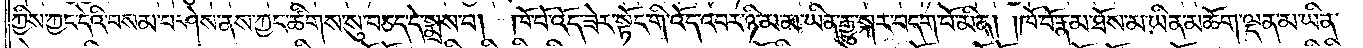ཀྱིས་ཀྱང་དེའི་བསམ་པ་ཤེས་ནས་ཀྱང་ཚིགས་སུ་བཅད་དེ་སྨྲས་པ། ཁོ་བོ་འོད་ཟེར་སྟོང་གི་འོད་འབར་ཉི་མ་མ་ཡིན་རྒྱུ་སྐར་བདག་པོ་མིན། །ཁོ་བོ་རྣམ་ཐོས་མ་ཡིན་མཆོག་ལྡན་མ་ཡིན་
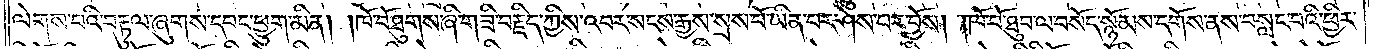ལེགས་པའི་བརྟུལ་ཞུགས་དབང་ཕྱུག་མིན། །ཁོ་བོ་ཐུགས་ཞི་གཟི་བརྗིད་ཀྱིས་འབར་སངས་རྒྱས་སྲས་པོ་ཡིན་པར་ཤེས་པར་བྱོས། །ཁོ་བོ་ཐུབ་ལ་བསོད་སྙོམས་དགོས་ནས་བསླང་བའི་ཕྱིར་
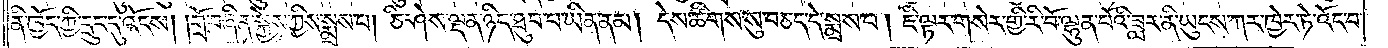ནི་ཁྱོད་ཀྱི་དྲུང་དུ་འོངས། །གྲོ་བཞིན་སྐྱེས་ཀྱིས་སྨྲས་པ། ཅི་ཤེས་ལྡན་ཉིད་ཐུབ་པ་ཡིན་ནམ། དེས་ཚིགས་སུ་བཅད་དེ་སྨྲས་པ། ཇི་ལྟར་གསེར་གྱི་རི་བོ་ལྷུན་པོའི་ཟླར་ནི་ཡུངས་ཀར་ཁྱེར་ཏེ་འོང་བ་
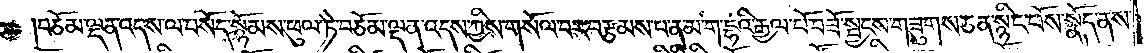བཅོམ་ལྡན་འདས་ལ་བསོད་སྙོམས་ཕུལ་ཏེ་བཅོམ་ལྡན་འདས་ཀྱིས་གསོལ་བར་བརྩམས་པ་ན་མ་ག་དྷའི་རྒྱལ་པོ་བཟོ་སྦྱངས་གཟུགས་ཅན་སྙིང་པོས་སྣོད་ནས་
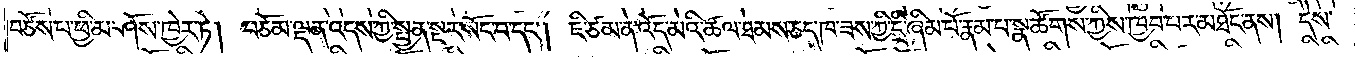བཙོས་པ་ཕྱི་མ་ཤོས་ཁྱེར་ཏེ། བཅོམ་ལྡན་འདས་ཀྱི་སྤྱན་སྔར་སོང་བ་དང༌། ཇི་ཙམ་ན་འོད་མའི་ཚལ་ཐམས་ཅད་ཁ་ཟས་ཀྱི་དྲི་ཞིམ་པོ་རྣམ་པ་སྣ་ཚོགས་ཀྱིས་ཁྱབ་པར་མཐོང་ནས། དེས་
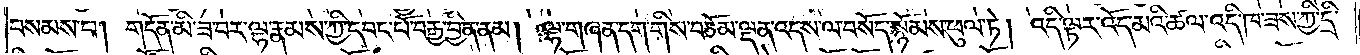བསམས་པ། གདོན་མི་ཟ་བར་ལྷ་རྣམས་ཀྱི་དབང་པོ་བརྒྱ་བྱིན་ནམ། ལྷ་གཞན་དག་གིས་བཅོམ་ལྡན་འདས་ལ་བསོད་སྙོམས་ཕུལ་ཏེ། འདི་ལྟར་འོད་མའི་ཚལ་འདི་ཁ་ཟས་ཀྱི་དྲི་
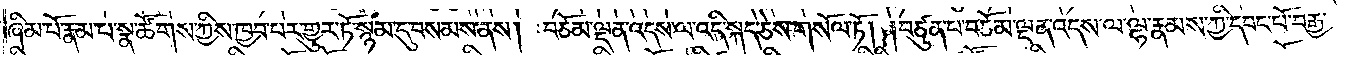ཞིམ་པོ་རྣམ་པ་སྣ་ཚོགས་ཀྱིས་ཁྱབ་པར་གྱུར་ཏོ་སྙམ་དུ་བསམས་ནས། བཅོམ་ལྡན་འདས་ལ་འདི་སྐད་ཅེས་གསོལ་ཏོ། །བཙུན་པ་བཅོམ་ལྡན་འདས་ལ་ལྷ་རྣམས་ཀྱི་དབང་པོ་བརྒྱ་
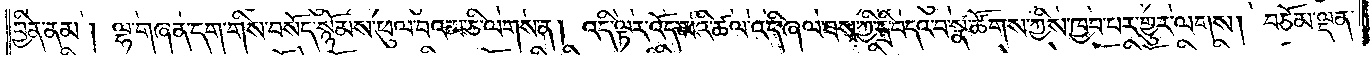བྱིན་ནམ། ལྷ་གཞན་དག་གིས་བསོད་སྙོམས་ཕུལ་བའམ་ཅི་ལགས་ན། འདི་ལྟར་འོད་མའི་ཚལ་འདི་ཞལ་ཟས་ཀྱི་དྲི་བདའ་བ་སྣ་ཚོགས་ཀྱིས་ཁྱབ་པར་གྱུར་ལགས། བཅོམ་ལྡན་
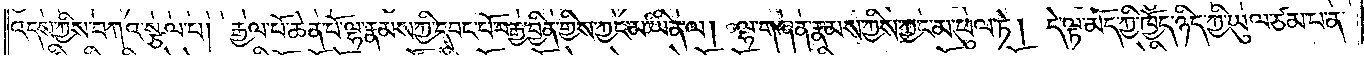འདས་ཀྱིས་བཀའ་སྩལ་པ། རྒྱལ་པོ་ཆེན་པོ་ལྷ་རྣམས་ཀྱི་དབང་པོ་བརྒྱ་བྱིན་གྱིས་ཀྱང་མ་ཡིན་ལ། ལྷ་གཞན་རྣམས་ཀྱིས་ཀྱང་མ་ཕུལ་ཏེ། དེ་ལྟ་མོད་ཀྱི་ཁྱོད་ཉིད་ཀྱི་ཡུལ་ཙམ་པ་ན་
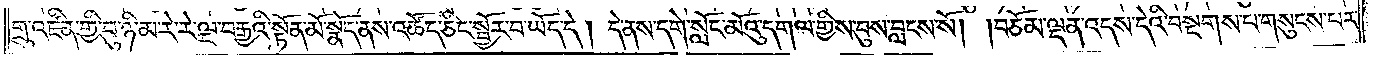གྲུ་འཛིན་གྱི་བུ་ཉི་མ་རེ་རེ་ལྔ་བརྒྱའི་སྟོན་མོ་སྣོད་ནས་འཚོད་ཅིང་སྦྱོར་བ་ཡོད་དེ། དེ་ནས་དགེ་སློང་མོའུ་དགལ་གྱིས་བུས་བླངས་སོ། །བཅོམ་ལྡན་འདས་དེའི་བསྔགས་པ་གསུངས་པར་
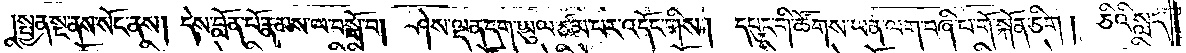སྤྱན་སྔ་ནས་སོང་ནས། དེས་བློན་པོ་རྣམས་ལ་བསྒོ་བ། ཤེས་ལྡན་དག་ཡུལ་ཙམ་པར་འདོང་གིས། དཔུང་གི་ཚོགས་ཡན་ལག་བཞི་པ་གོ་སྐོན་ཅིག །ཅིའི་སླད་
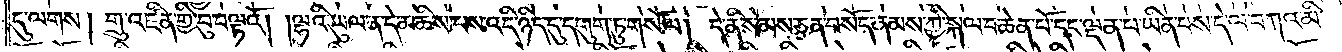དུ་ལགས། གྲུ་འཛིན་གྱི་བུ་བལྟའོ། །ལྷའི་ཡུལ་ན་དེ་མཆིས་པས་འདི་ཉིད་དུ་དགུག་ཏུ་གསོལ། དེ་ནི་སེམས་ཅན་བསོད་ནམས་ཀྱི་སྐལ་པ་ཆེན་པོ་དང་ལྡན་པ་ཡིན་པས་དེ་ལ་བཀའ་མི་
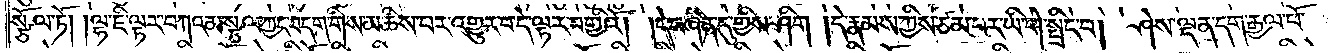སྩོལ་ཏོ། །ལྷ་ཇི་ལྟར་བཀའ་མ་སྩལ་ཀྱང་བདག་གིས་མཆིས་པར་འགྱུར་བ་དེ་ལྟར་བགྱིའོ། །དེ་བཞིན་དུ་གྱིས་ཤིག །དེ་རྣམས་ཀྱིས་ཙམ་པར་ཡི་གེ་སྤྲིང་བ། ཤེས་ལྡན་དག་རྒྱལ་པོ་
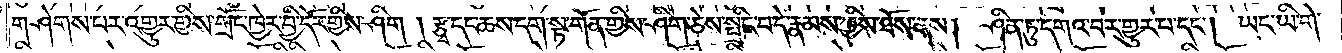གཤེགས་པར་འགྱུར་གྱིས་གྲོང་ཁྱེར་བྱི་དོར་གྱིས་ཤིག །རྩྭ་དང་ཆས་དག་སྟ་གོན་གྱིས་ཤིག་ཅེས་སྤྲིང་བ་དེ་རྣམས་ཀྱིས་ཐོས་ནས། ཤིན་ཏུ་དགའ་བར་གྱུར་པ་དང༌། ཡང་ཡི་གེ་
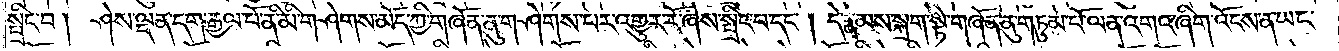སྤྲིང་བ། ཤེས་ལྡན་དག་རྒྱལ་པོ་ནི་མི་གཤེགས་མོད་ཀྱི་གཞོན་ནུ་གཤེགས་པར་འགྱུར་རོ་ཞེས་སྤྲིང་བ་དང༌། དེ་རྣམས་སྐྲག་སྟེ་གཞོན་ནུ་གཏུམ་པོ་ལན་འགའ་ཞིག་འོངས་ན་ཡང་
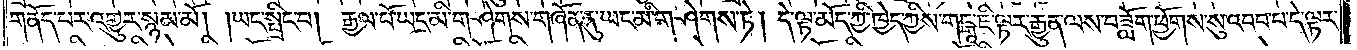གནོད་པར་འགྱུར་སྙམ་མོ། །ཡང་སྤྲིང་བ། རྒྱལ་པོ་ཡང་མི་གཤེགས་གཞོན་ནུ་ཡང་མི་གཤེགས་ཏེ། དེ་ལྟ་མོད་ཀྱི་ཁྱེད་ཀྱིས་གངྒཱ་ཇི་ལྟར་རྒྱུན་ལས་བཟློག་ཕྱོགས་སུ་འབབ་པ་དེ་ལྟར་
